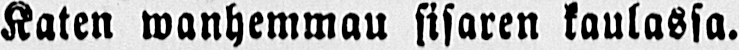Katen wanhemmau sisaren kaulassa.
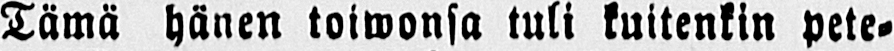Tämä hänen toiwonsa tuli kuitenkin pete-
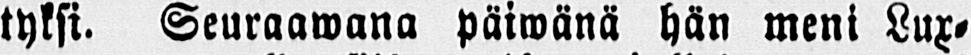tyksi. Seuraawana päiwänä hän meni Lux-
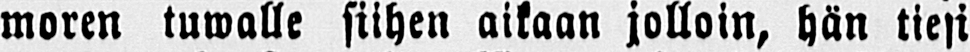moren tuwalle siihen aikaan jolloin, hän tiesi
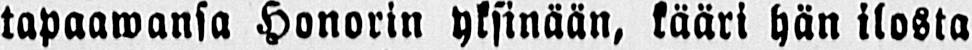tapaawansa Honorin yksinään, kääri hän ilosta
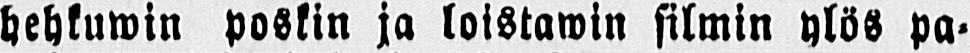hehkuwin poskin ja loistawin silmin ylös pa-
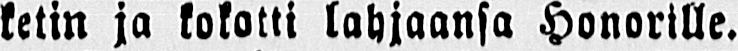ketin ja kokotti lahjaansa Honorille.
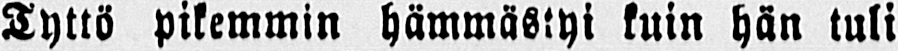Tyttö pikemmin hämmästyi kuin hän tuli
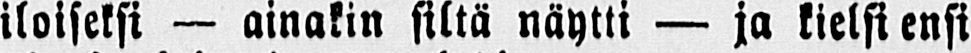iloiseksi - ainakin siltä näytti — ja kielsi ensi
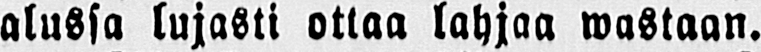alussa lujasti ottaa lahjaa wastaan.
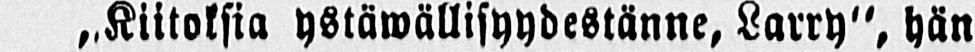„Kiitoksia ystäwällisyydestänne, Larry", hän
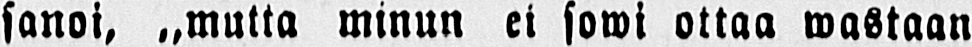sanoi, „multa minun ei sowi ottaa wastaan
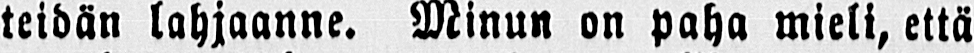teidän lahjaanne. Minun on paha mieli, että
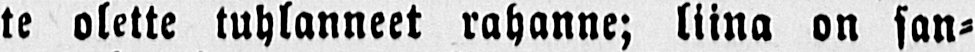te olette tuhlanneet rahanne; liina on san-
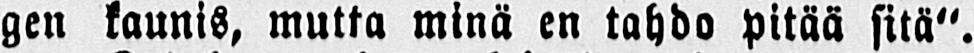gen kaunis, mutta minä en tahdo pitää sitä".
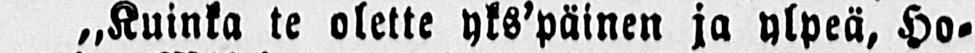„Kuinka te olette yks'päinen ja ylpeä, Ho-
